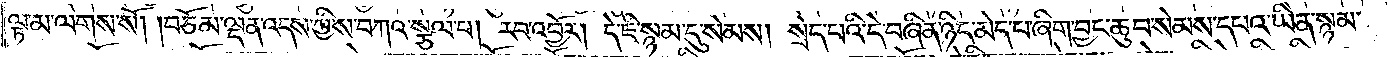ལྟ་མ་ལགས་སོ། །བཅོམ་ལྡན་འདས་ཀྱིས་བཀའ་སྩལ་པ། རབ་འབྱོར། དེ་ཇི་སྙམ་དུ་སེམས། སྲེད་པའི་དེ་བཞིན་ཉིད་མེད་པ་ཞིག་བྱང་ཆུབ་སེམས་དཔའ་ཡིན་སྙམ་
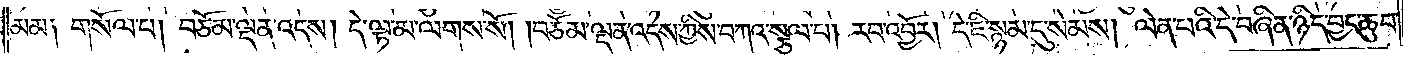མམ༑ གསོལ་པ། བཅོམ་ལྡན་འདས། དེ་ལྟ་མ་ལགས་སོ། །བཅོམ་ལྡན་འདས་ཀྱིས་བཀའ་སྩལ་པ། རབ་འབྱོར། དེ་ཇི་སྙམ་དུ་སེམས། ལེན་པའི་དེ་བཞིན་ཉིད་བྱང་ཆུབ་
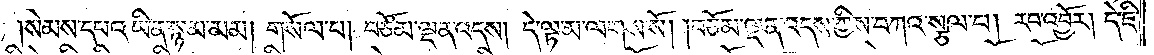སེམས་དཔའ་ཡིན་སྙམ་མམ། གསོལ་པ། བཅོམ་ལྡན་འདས། དེ་ལྟ་མ་ལགས་སོ། །བཅོམ་ལྡན་འདས་ཀྱིས་བཀའ་སྩལ་པ། རབ་འབྱོར། དེ་ཇི་
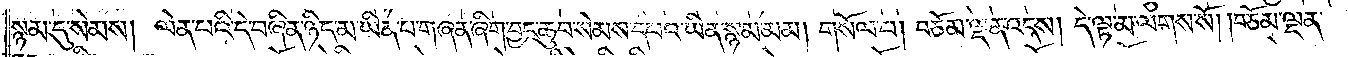སྙམ་དུ་སེམས། ལེན་པའི་དེ་བཞིན་ཉིད་མ་ཡིན་པ་གཞན་ཞིག་བྱང་ཆུབ་སེམས་དཔའ་ཡིན་སྙམ་མམ། གསོལ་པ། བཅོམ་ལྡན་འདས། དེ་ལྟ་མ་ལགས་སོ། །བཅོམ་ལྡན་
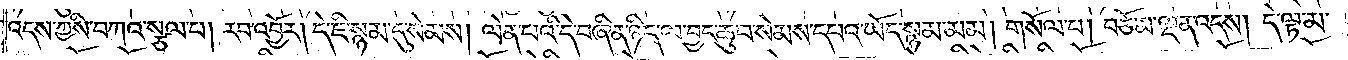འདས་ཀྱིས་བཀའ་སྩལ་པ། རབ་འབྱོར། དེ་ཇི་སྙམ་དུ་སེམས། ལེན་པའི་དེ་བཞིན་ཉིད་ལ་བྱང་ཆུབ་སེམས་དཔའ་ཡོད་སྙམ་མམ། གསོལ་བ། བཅོམ་ལྡན་འདས། དེ་ལྟ་མ་
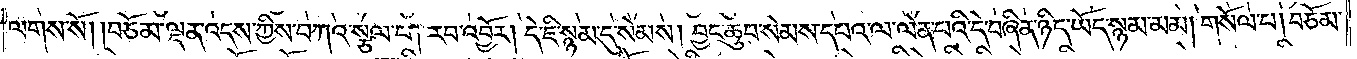ལགས་སོ། །བཅོམ་ལྡན་འདས་ཀྱིས་བཀའ་སྩལ་པ། རབ་འབྱོར། དེ་ཇི་སྙམ་དུ་སེམས། བྱང་ཆུབ་སེམས་དཔའ་ལ་ལེན་པའི་དེ་བཞིན་ཉིད་ཡོད་སྙམ་མམ། གསོལ་པ། བཅོམ་
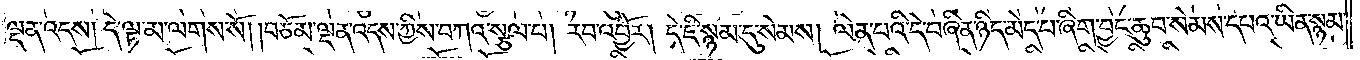ལྡན་འདས། དེ་ལྟ་མ་ལགས་སོ། །བཅོམ་ལྡན་འདས་ཀྱིས་བཀའ་སྩལ་པ། རབ་འབྱོར། དེ་ཇི་སྙམ་དུ་སེམས། ལེན་པའི་དེ་བཞིན་ཉིད་མེད་པ་ཞིག་བྱང་ཆུབ་སེམས་དཔའ་ཡིན་སྙམ་
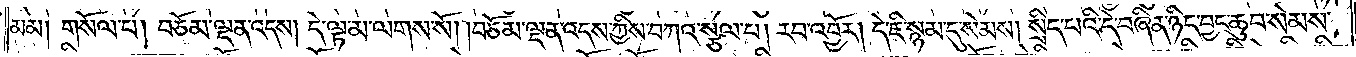མམ། གསོལ་པ། བཅོམ་ལྡན་འདས། དེ་ལྟ་མ་ལགས་སོ། །བཅོམ་ལྡན་འདས་ཀྱིས་བཀའ་སྩལ་པ། རབ་འབྱོར། དེ་ཇི་སྙམ་དུ་སེམས། སྲིད་པའི་དེ་བཞིན་ཉིད་བྱང་ཆུབ་སེམས་
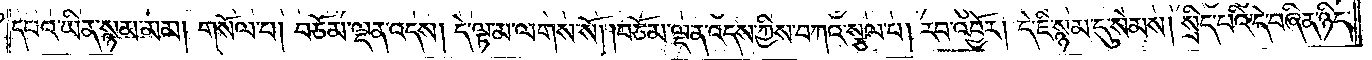དཔའ་ཡིན་སྙམ་མམ། གསོལ་པ། བཅོམ་ལྡན་འདས། དེ་ལྟ་མ་ལགས་སོ། །བཅོམ་ལྡན་འདས་ཀྱིས་བཀའ་སྩལ་པ། རབ་འབྱོར། དེ་ཇི་སྙམ་དུ་སེམས། སྲིད་པའི་དེ་བཞིན་ཉིད་
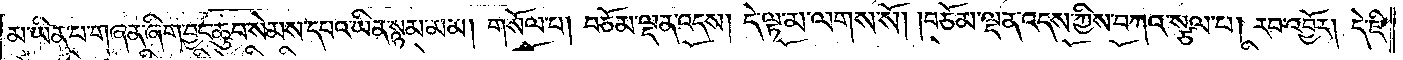མ་ཡིན་པ་གཞན་ཞིག་བྱང་ཆུབ་སེམས་དཔའ་ཡིན་སྙམ་མམ། གསོལ་པ། བཅོམ་ལྡན་འདས། དེ་ལྟ་མ་ལགས་སོ། །བཅོམ་ལྡན་འདས་ཀྱིས་བཀའ་སྩལ་པ། རབ་འབྱོར། དེ་ཇི་
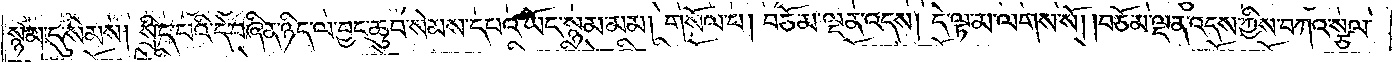སྙམ་དུ་སེམས། སྲིད་པའི་དེ་བཞིན་ཉིད་ལ་བྱང་ཆུབ་སེམས་དཔའ་ཡོད་སྙམ་མམ། གསོལ་པ། བཅོམ་ལྡན་འདས། དེ་ལྟ་མ་ལགས་སོ། །བཅོམ་ལྡན་འདས་ཀྱིས་བཀའ་སྩལ་
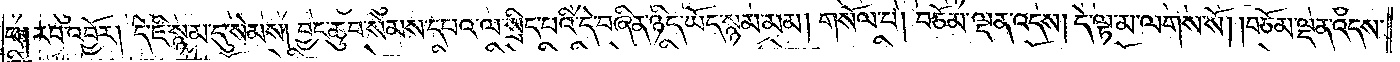པ། རབ་འབྱོར། དེ་ཇི་སྙམ་དུ་སེམས། བྱང་ཆུབ་སེམས་དཔའ་ལ་སྲིད་པའི་དེ་བཞིན་ཉིད་ཡོད་སྙམ་མམ། གསོལ་པ། བཅོམ་ལྡན་འདས། དེ་ལྟ་མ་ལགས་སོ། །བཅོམ་ལྡན་འདས་
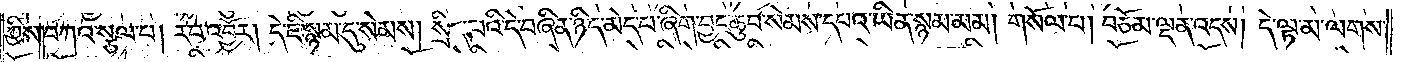ཀྱིས་བཀའ་སྩལ་པ། རབ་འབྱོར། དེ་ཇི་སྙམ་དུ་སེམས། སྲིད་པའི་དེ་བཞིན་ཉིད་མེད་པ་ཞིག་བྱང་ཆུབ་སེམས་དཔའ་ཡིན་སྙམ་མམ། གསོལ་པ། བཅོམ་ལྡན་འདས། དེ་ལྟ་མ་ལགས་
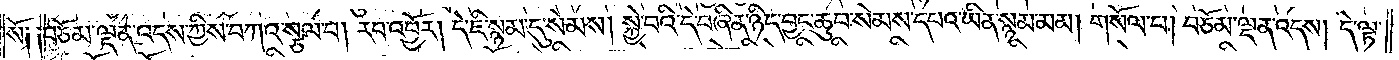སོ༑ ༑བཅོམ་ལྡན་འདས་ཀྱིས་བཀའ་སྩལ་པ། རབ་འབྱོར། དེ་ཇི་སྙམ་དུ་སེམས། སྐྱེ་བའི་དེ་བཞིན་ཉིད་བྱང་ཆུབ་སེམས་དཔའ་ཡིན་སྙམ་མམ། གསོལ་པ། བཅོམ་ལྡན་འདས། དེ་ལྟ་
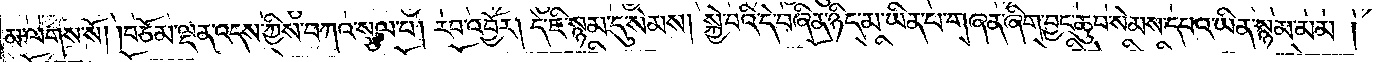མ་ལགས་སོ། །བཅོམ་ལྡན་འདས་ཀྱིས་བཀའ་སྩལ་པ། རབ་འབྱོར། དེ་ཇི་སྙམ་དུ་སེམས། སྐྱེ་བའི་དེ་བཞིན་ཉིད་མ་ཡིན་པ་གཞན་ཞིག་བྱང་ཆུབ་སེམས་དཔའ་ཡིན་སྙམ་མམ།
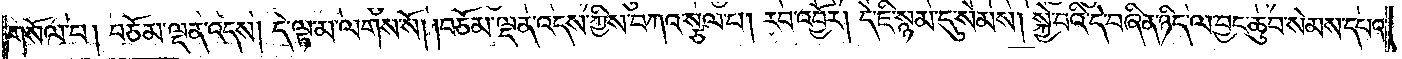གསོལ་པ། བཅོམ་ལྡན་འདས། དེ་ལྟ་མ་ལགས་སོ། །བཅོམ་ལྡན་འདས་ཀྱིས་བཀའ་སྩལ་པ། རབ་འབྱོར། དེ་ཇི་སྙམ་དུ་སེམས། སྐྱེ་བའི་དེ་བཞིན་ཉིད་ལ་བྱང་ཆུབ་སེམས་དཔའ་
